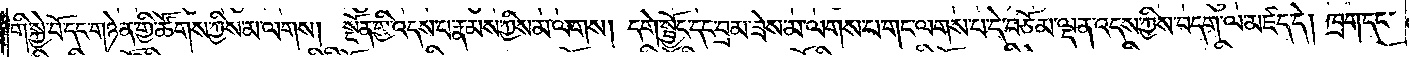གི་སྐྱེ་བོ་དང་གཉེན་གྱི་ཚོགས་ཀྱིས་མ་ལགས། སྔོན་གྱི་འདས་པ་རྣམས་ཀྱིས་མ་ལགས། དགེ་སྦྱོང་དང་བྲམ་ཟེས་མ་ལགས་པ་གང་ལགས་པ་དེ་བཅོམ་ལྡན་འདས་ཀྱིས་བདག་ལ་མཛད་དེ། ཁྲག་དང་
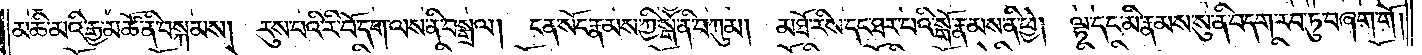མཆི་མའི་རྒྱ་མཚོ་ནི་བསྐམས། རུས་པའི་རི་བོ་དག་ལས་ནི་བསྒྲལ། ངན་སོང་རྣམས་ཀྱི་སྒོ་ནི་བཀུམ། མཐོ་རིས་དང་ཐར་པའི་སྒོ་རྣམས་ནི་ཕྱེ། ལྷ་དང་མི་རྣམས་སུ་ནི་བདག་རབ་ཏུ་བཞག་གོ །
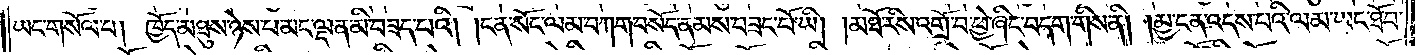ཡང་གསོལ་པ། ཁྱོད་མཐུས་ཉེས་པ་མང་ལྡན་མི་བཟད་པའི། །ངན་སོང་ལམ་བཀག་བསོད་ནམས་བཟང་པོ་ཡི། །མཐོ་རིས་འགྲོ་བ་ཕྱེ་ཞིང་བདག་གིས་ནི། །མྱ་ངན་འདས་པའི་ལམ་ཡང་ཐོབ་
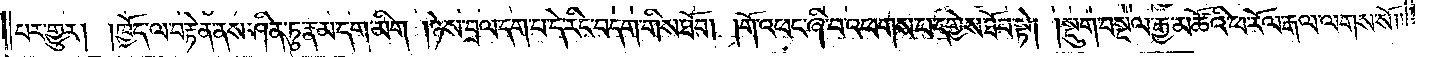པར་གྱུར། །ཁྱོད་ལ་བརྟེན་ནས་ཤིན་ཏུ་རྣམ་དག་མིག །ཉེས་བྲལ་དག་པ་དེ་རིང་བདག་གིས་ཐོབ། །གོ་འཕང་ཞི་བ་འཕགས་པ་དགྱེས་ཐོབ་སྟེ། །སྡུག་བསྔལ་རྒྱ་མཚོའི་ཕ་རོལ་རྒལ་ལགས་སོ། །
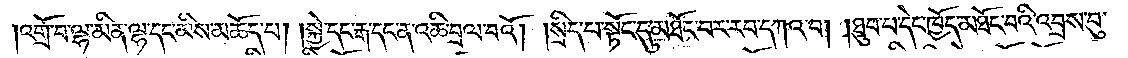།འགྲོ་བ་ལྷ་མིན་ལྷ་དང་མིས་མཆོད་པ། །སྐྱེ་དང་རྒ་དང་ན་འཆི་བྲལ་བའོ། །སྲིད་པ་སྟོང་དུ་མཐོང་བར་རབ་དཀའ་བ། །ཐུབ་པ་དེང་ཁྱོད་མཐོང་བའི་འབྲས་བུ་
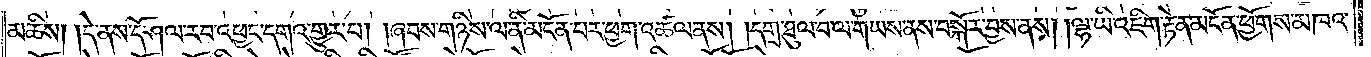མཆིས། །དེ་ནས་དོ་ཤལ་རབ་འཕྱང་དགའ་གྱུར་པ། །ཞབས་གཉིས་ལ་ནི་མངོན་པར་ཕྱག་འཚལ་ནས། །དགྲ་ཐུལ་བ་ལ་གཡས་ནས་བསྐོར་བྱས་ནས། །ལྷ་ཡི་འཇིག་རྟེན་མངོན་ཕྱོགས་མཁའ་
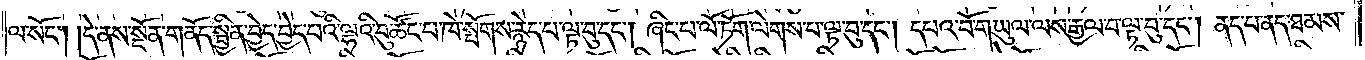ལ་སོང༌། །དེ་ནས་སྔོན་གནོད་སྦྱིན་བྱེད་བྱེད་པའི་ལྷའི་བུ་ཚོང་བ་ཁེ་སྤོགས་རྙེད་པ་ལྟ་བུ་དང༌། ཞིང་པ་ལོ་ཏོག་ལེགས་པ་ལྟ་བུ་དང༌། དཔའ་བོ་གཡུལ་ལས་རྒྱལ་བ་ལྟ་བུ་དང༌། ནད་པ་ནད་ཐམས་
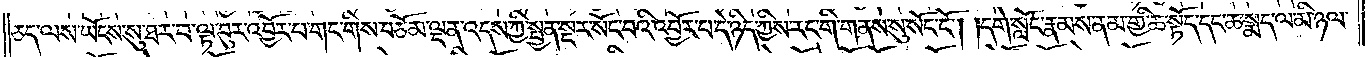ཅད་ལས་ཡོངས་སུ་ཐར་པ་ལྟ་བུར་འབྱོར་བ་གང་གིས་བཅོམ་ལྡན་འདས་ཀྱི་སྤྱན་སྔར་སོང་བའི་འབྱོར་པ་དེ་ཉིད་ཀྱིས་རང་གི་གནས་སུ་སོང་ངོ༌། །དགེ་སློང་རྣམས་ནམ་གྱི་ཆ་སྟོད་དང་ཆ་སྨད་ལ་མི་ཉལ་
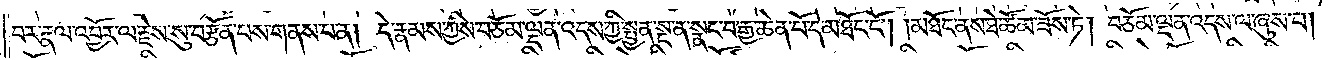བར་རྣལ་འབྱོར་ལ་རྗེས་སུ་བརྩོན་པས་གནས་པ་ན། དེ་རྣམས་ཀྱིས་བཅོམ་ལྡན་འདས་ཀྱི་སྤྱན་སྔ་ན་སྣང་བ་རྒྱ་ཆེན་པོ་དེ་མཐོང་ངོ༌། །མཐོང་ནས་ཐེ་ཚོམ་ཟོས་ཏེ། བཅོམ་ལྡན་འདས་ལ་ཞུས་པ།
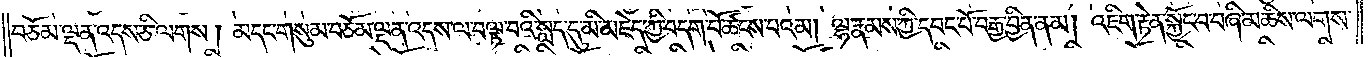བཅོམ་ལྡན་འདས་ཅི་ལགས། མདང་གསུམ་བཅོམ་ལྡན་འདས་ལ་བལྟ་བའི་སླད་དུ་མི་མཇེད་ཀྱི་བདག་པོ་ཚངས་པའམ། ལྷ་རྣམས་ཀྱི་དབང་པོ་བརྒྱ་བྱིན་ནམ། འཇིག་རྟེན་སྐྱོང་བ་བཞི་མཆིས་ལགས་
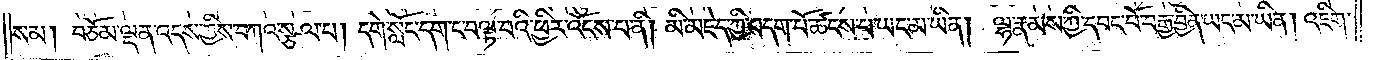སམ། བཅོམ་ལྡན་འདས་ཀྱིས་བཀའ་སྩལ་པ། དགེ་སློང་དག་ང་བལྟ་བའི་ཕྱིར་འོངས་པ་ནི། མི་མཇེད་ཀྱི་བདག་པོ་ཚངས་པ་ཡང་མ་ཡིན། ལྷ་རྣམས་ཀྱི་དབང་པོ་བརྒྱ་བྱིན་ཡང་མ་ཡིན། འཇིག་
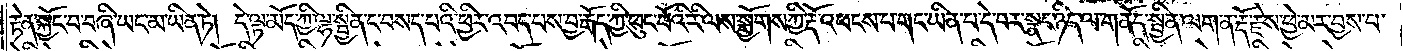རྟེན་སྐྱོང་བ་བཞི་ཡང་མ་ཡིན་ཏེ། དེ་ལྟ་མོད་ཀྱི་ལྷ་སྦྱིན་ང་བསད་པའི་ཕྱིར་འབད་པས་བྱ་རྒོད་ཀྱི་ཕུང་པོའི་རི་ལས་སྒྱོགས་ཀྱི་རྡོ་འཕངས་པ་གང་ཡིན་པ་དེ་བར་སྣང་ཉིད་ལ་གནོད་སྦྱིན་ལག་ན་རྡོ་རྗེས་ཕྱེ་མར་བྱས་པ་
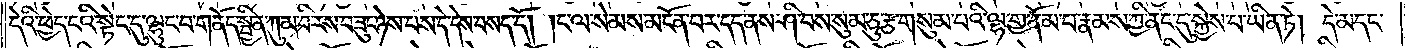དེའི་ཕྱེད་ངའི་སྟེང་དུ་ལྷུང་བ་གནོད་སྦྱིན་ཀུམ་བི་རས་བཟུང་ཉེས་པས་དེ་དེས་བསད་དོ། །ང་ལ་སེམས་མངོན་པར་དད་ནས་ཤི་བས་སུམ་ཅུ་རྩ་གསུམ་པའི་ལྷ་གྱ་ནོམ་པ་རྣམས་ཀྱི་ནང་དུ་སྐྱེས་པ་ཡིན་ཏེ།  དེ་མདང་
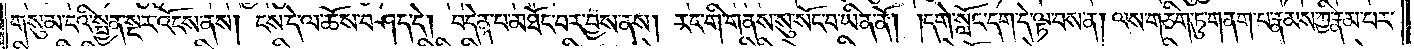གསུམ་ངའི་སྤྱན་སྔར་འོངས་ནས། ངས་དེ་ལ་ཆོས་བཤད་དེ། བདེན་པ་མཐོང་བར་བྱས་ནས། རང་གི་གནས་སུ་སོང་བ་ཡིན་ནོ། །དགེ་སློང་དག་དེ་ལྟ་བས་ན། ལས་གཅིག་ཏུ་གནག་པ་རྣམས་ཀྱི་རྣམ་པར་
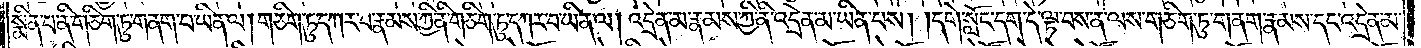སྨིན་པ་ནི་གཅིག་ཏུ་གནག་པ་ཡིན་ལ། གཅིག་ཏུ་དཀར་པ་རྣམས་ཀྱི་ནི་གཅིག་ཏུ་དཀར་བ་ཡིན་ལ། འདྲེན་མ་རྣམས་ཀྱི་ནི་འདྲེན་མ་ཡིན་པས། དགེ་སློང་དག་དེ་ལྟ་བས་ན་ལས་གཅིག་ཏུ་གནག་རྣམས་དང་འདྲེན་མ་
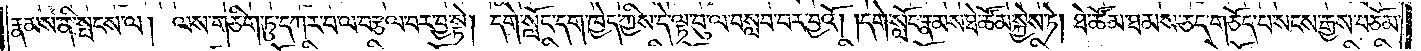རྣམས་ནི་སྤངས་ལ། ལས་གཅིག་ཏུ་དཀར་བ་ལ་བརྩལ་བར་བྱ་སྟེ། དགེ་སློང་དག་ཁྱེད་ཀྱིས་དེ་ལྟ་བུ་ལ་བསླབ་པར་བྱའོ། །དགེ་སློང་རྣམས་ཐེ་ཚོམ་སྐྱེས་ཏེ། ཐེ་ཚོམ་ཐམས་ཅད་གཅོད་པ་སངས་རྒྱས་བཅོམ་
